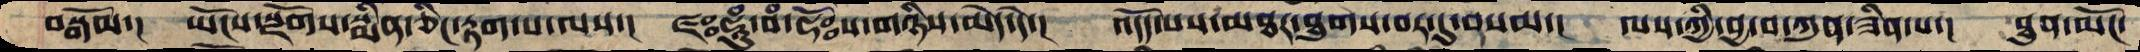བསྒོམ་།   ཡོངས་སྫོགས་སྨིན་ཅིང་རྟག་པ་ལས་།   ཛཿཧཱུཾ་བཾ་ཧོཿས་གཉིས་མེད་དེ་།   འདོད་པས་མཐར་ཐུགས་བར་དུ་བསམ་།  ལས་ཀྱི་བྱ་བ་ཀུན་ཟིན་པ་།  ཐུན་མོང་
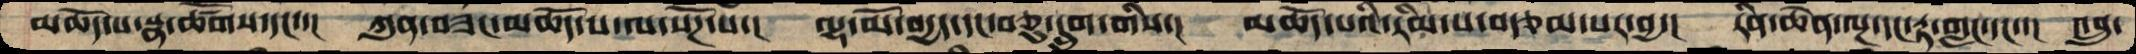མཆོད་པ་སྣ་ཚོགས་དང་་།   ཀུན་བཟང་མཆོད་པ་ལ་སོཌ་པ་།  ལྷ་མོ་བདྱད་དང་བཅུ་དྲུག་གིས་།  མཆོད་པའི་རིམ་པ་བརྩམ་པར་བྱ་།  རིན་ཆེན་ལྔ་དང་རྟ་གླང་དང་་།  འབྲུ་
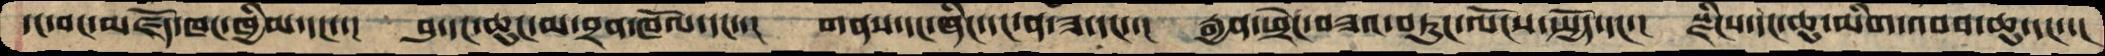དང་བང་མཛོད་ཁང་ཁྱིམ་དང་་།   བུ་དང་ཆུང་མ་བྲན་ཁོལ་དང་་།  གནས་དང་ཞིང་དང་ན་ཟ་དང་་།  རྒྱན་ཕྲེང་བཟའ་བཏུང་ལོངས་སྤྱོད་དང་།   སྫིངས་དང་ཆུ་མིག་འབབ་ཆུ་དང་་།
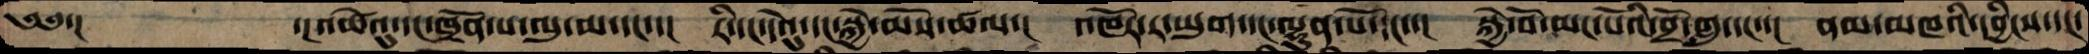༄༅་།         ་།འཚེའུ་དང་ཁྲོན་པ་ལུ་མ་དང་་།   རི་དང་དེའུ་དང་སྐྱེ་མོས་ཚལ་།  འཁོར་ར་ཡུག་དང་ལྷུན་པོ་དང་་།  སྐྱེ་བོ་མང་པོའི་བྲོ་གླུ་དང་་།  ནམ་མཁའི་དབྱིངས་དང་
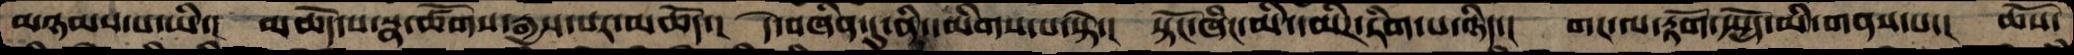མཉམས་པ་ཡི་།   མཆོད་པ་སྣ་ཚོགས་རྒྱས་པར་མཆོད་།  དེ་བཞིན་དུ་ནི་དམིགས་པ་སྟེ་།  སྟོང་ཞིང་མི་དམིཌ་རིག་པ་ཉིད་།  གར་ལ་རྟོག་སྤྱོད་མི་གནས་པ་།   ཆོས་
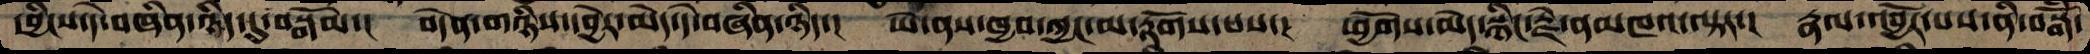དབྱིངས་དེ་བཞིན་ཉིད་དུ་བསྒོམ་།  བདེན་གཉིས་དབྱེར་མེད་དེ་བཞིན་ཉིད་།  ཡེ་ནས་ཁྱབ་ཀྱང་མ་རྟོགས་པས་།  ཕྱོགས་མེད་སྙིང་རྗེ་ནམཁའ་ལྟར་།  རྣལ་འབྱོར་པས་ནི་བསྒོཾ་
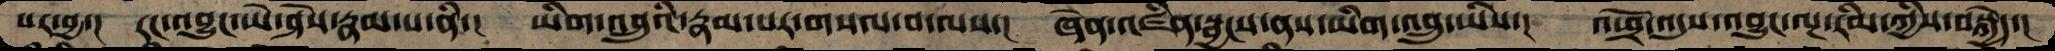པར་བྱ་།   རང་འབྱུང་ཡེ་ཤེས་རྣམ་པ་ནི་།  ཡིག་འབྲུའི་རྣམ་པར་གསལ་བ་ལས་།  ཞེན་འཛིན་སྦྱངས་ནས་ཡིག་འབྲུ་ཡིས་།  འཕྲོ་འདུས་འབྱུང་ལྔ་རིམ་ཀྱིས་བསྐྱེད་།
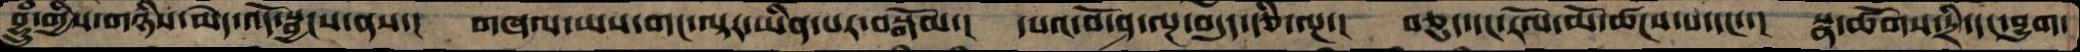བྷྲུཾ་གྱིས་གཉིས་མེད་འོད་སྦྱངས་ནས་།   གཞལ་ཡས་གང་ལྟར་ཡིན་པར་བསྒོམ་།  དཔའ་བོ་ཤ་ལྔ་བདུད་རྩི་ལྔ་།  བཅུད་དང་རོལ་མོ་ཚངས་པ་དང་་།  སྣ་ཚོགས་དྲི་དང་བྱུག་
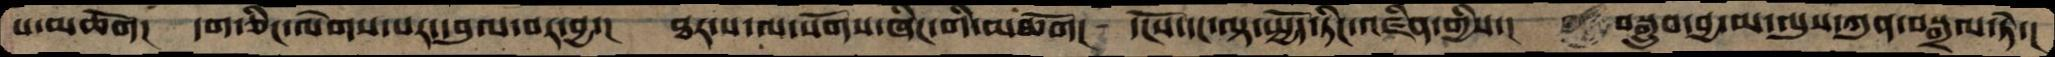པ་མཆོག།  དག་ཅིང་ལེགས་པར་དབུལ་བར་བྱ་།  ཐར་པ་ལ་སོགས་ཞིང་གི་མཆོག།  དངོས་དང་ལྟ་སྤྱོད་ཏིང་འཛིན་གྱིས་།  བསྒྲུབ་བྱ་མ་ལུས་ཀུན་བསྒྲལ་ཏེ་།
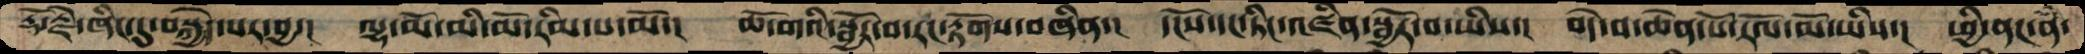རྡོ་རྗེ་ཞིང་དུ་བསྐྱེད་པར་བྱ་།  ལྷ་མོ་མི་མོ་རིམ་པ་མོ་།  ཆོ་གའི་སྦྱོར་བ་རང་རྟོགས་བཞིན་།  དངོས་དང་ཏིང་འཛིན་སྦྱོར་བ་ཡིས་།  བདེ་བ་ཆེན་པོ་རོལ་མོ་ཡིས་།  ཕྱི་ནང་ནཾ
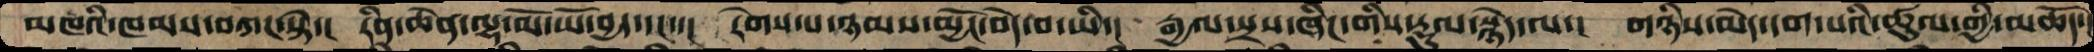མཁའི་ཁམས་བཀང་སྟེ་།  རིན་ཆེན་ལྷ་མོ་ཡོ་བྱད་དང་་།  རེགས་པ་ཉམས་མྱོང་བདེ་བ་ཡིས་།  རྒྱལ་སྲས་ཞིང་གི་རྡུལ་སྙེད་ལ་།  གཉིས་མེད་དག་པའི་ཚུལ་གྱི་མཆོད་།
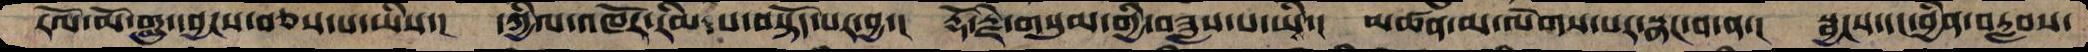རོལ་མོ་གླུ་དབྱངས་བཅས་པ་ཡིས་།  དཀྱིལ་འཁོར་རིམ་པ་བསྟོད་པར་བྱ་།  རྡོ་རྗེ་གསུམ་གྱི་བཟླས་པ་ཡི་།  མཚན་མ་ལེགས་པར་སྣང་བ་ན་།  སྦྱངས་དང་བྱིན་བརླབས་
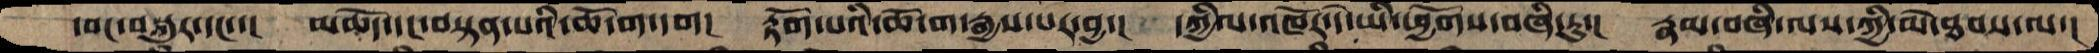དབང་བསྐུར་དང་་།  མཆོད་དང་བསྟན་པའི་ཆོ་ག་དག།  རྟོག་པའི་ཆོ་ག་རྒྱས་པར་བྱ་།  དཀྱིལ་འཁོར་དེ་ཡི་ཕྱོགས་བཞི་རུ་།  རྣམ་བཞི་ལས་ཀྱི་མེ་ཐབས་ལ་།
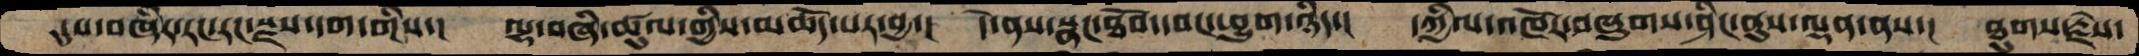དུས་བཞིར་རང་རང་སྫས་དག་གིས་།  ལྷ་བཞི་ཚུལ་གྱིས་མཆོད་པར་བྱ་།  དེ་ནས་སྣང་ཐོབ་དབང་ཕྱུག་ཉིད་།  དཀྱིལ་འཁོར་བཞུགས་ཤིང་ནུས་ལྡན་ནས་།  ཐུགས་རྗེས་
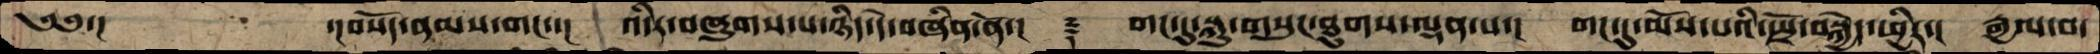༄༅་།        ་།བསོད་ནམས་གང་་།   འདིར་བཞུགས་པ་ཉིད་དེ་བཞིན་ནོ་།    ࿑  གང་དུ་སྐུ་གསུང་ཐུགས་ལྡན་པ་།  གང་དུ་མོས་པའི་སྤྲོ་བསྐྱེད་ཕྱིར་།  རྒྱལ་བ་
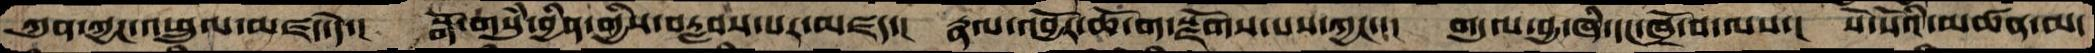ཀུན་ཀྱང་འཕྲུལ་མཛད་དེ་།  སྒོ་གསུཾ་བྱིན་གྱིས་བརླབས་པར་མཛད་།  རྣལ་འབྱོར་ཆོ་ག་སྫོགས་པས་ཀྱང་་།  གདུལ་བྱ་ཞི་དང་ཁྲོ་བ་ལས་།  སོ་སོའི་མཚན་མ་
